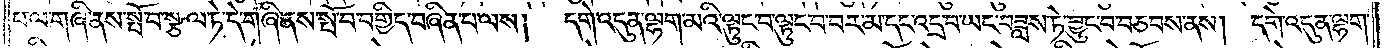པ་ལ་གཞི་ནས་སྤོ་བ་སྩལ་ཏེ་དེ་གཞི་ནས་སྤོ་བ་བགྱིད་བཞིན་པ་ལས། དགེ་འདུན་ལྷག་མའི་ལྟུང་བ་ལྟུང་བ་བར་མ་དང་འདྲ་བ་ཡང་བཟླས་ཏེ་བྱུང་བ་བཅབས་ནས། དགེ་འདུན་ལྷག་
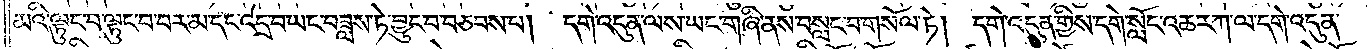མའི་ལྟུང་བ་ལྟུང་བ་བར་མ་དང་འདྲ་བ་ཡང་བཟླས་ཏེ་བྱུང་བ་བཅབས་པ། དགེ་འདུན་ལས་ཡང་གཞི་ནས་བསླང་བ་གསོལ་ཏེ། དགེ་འདུན་གྱིས་དགེ་སློང་འཆར་ཀ་ལ་དགེ་འདུན་
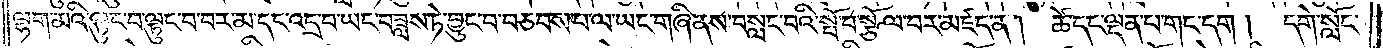ལྷག་མའི་ལྟུང་བ་ལྟུང་བ་བར་མ་དང་འདྲ་བ་ཡང་བཟླས་ཏེ་བྱུང་བ་བཅབས་པ་ལ་ཡང་གཞི་ནས་བསླང་བའི་སྤོ་བ་སྩོལ་བར་མཛད་ན། ཚེ་དང་ལྡན་པ་གང་དག །དགེ་སློང་
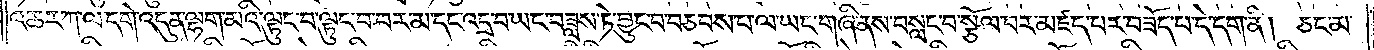འཆར་ཀ་ལ་དགེ་འདུན་ལྷག་མའི་ལྟུང་བ་ལྟུང་བ་བར་མ་དང་འདྲ་བ་ཡང་བཟླས་ཏེ་བྱུང་བ་བཅབས་པ་ལ་ཡང་གཞི་ནས་བསླང་བ་སྩོལ་བར་མཛད་པ་བཟོད་པ་དེ་དག་ནི། ཅང་མ་
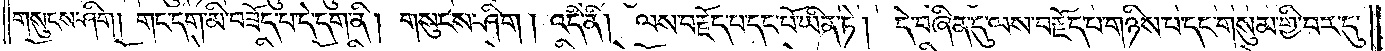གསུངས་ཤིག །གང་དག་མི་བཟོད་པ་དེ་དག་ནི། གསུངས་ཤིག །འདི་ནི། ལས་བརྗོད་པ་དང་པོ་ཡིན་ཏེ། དེ་བཞིན་དུ་ལས་བརྗོད་པ་གཉིས་པ་དང་གསུམ་གྱི་བར་དུ་
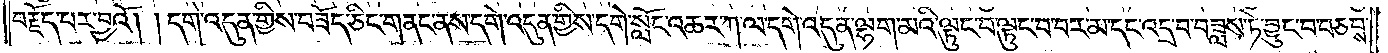བརྗོད་པར་བྱའོ། །དགེ་འདུན་གྱིས་བཟོད་ཅིང་གནང་ནས་དགེ་འདུན་གྱིས་དགེ་སློང་འཆར་ཀ་ལ་དགེ་འདུན་ལྷག་མའི་ལྟུང་བ་ལྟུང་བ་བར་མ་དང་འདྲ་བ་བཟླས་ཏེ་བྱུང་བ་བཅབས་
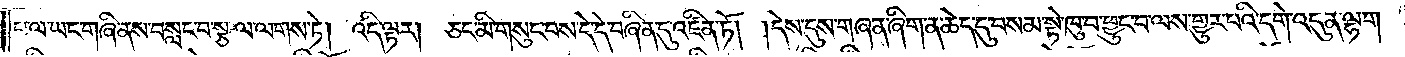པ་ལ་ཡང་གཞི་ནས་བསླང་བ་སྩལ་ལགས་ཏེ། འདི་ལྟར། ཅང་མི་གསུང་བས་དེ་དེ་བཞིན་དུ་འཛིན་ཏོ། །དེས་དུས་གཞན་ཞིག་ན་ཆེད་དུ་བསམ་སྟེ་ཁུ་བ་ཕྱུང་བ་ལས་གྱུར་པའི་དགེ་འདུན་ལྷག་
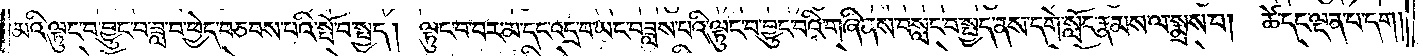མའི་ལྟུང་བ་བྱུང་བ་ཟླ་བ་ཕྱེད་བཅབས་པའི་སྤོ་བ་སྤྱད། ལྟུང་བ་བར་མ་དང་འདྲ་བ་ཡང་བཟླས་པའི་ལྟུང་བ་བྱུང་བའི་གཞི་ནས་བསླང་བ་སྤྱད་ནས་དགེ་སློང་རྣམས་ལ་སྨྲས་པ། ཚེ་དང་ལྡན་པ་དག།
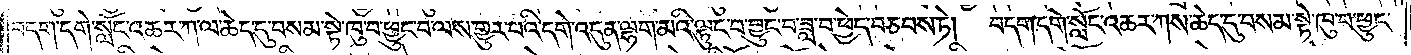བདག་དགེ་སློང་འཆར་ཀ་ལ་ཆེད་དུ་བསམ་སྟེ་ཁུ་བ་ཕྱུང་བ་ལས་གྱུར་པའི་དགེ་འདུན་ལྷག་མའི་ལྟུང་བ་བྱུང་བ་ཟླ་བ་ཕྱེད་བཅབས་ཏེ། བདག་དགེ་སློང་འཆར་ཀས་ཆེད་དུ་བསམ་སྟེ་ཁུ་བ་ཕྱུང་
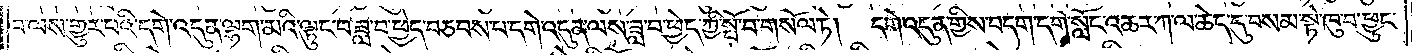བ་ལས་གྱུར་པའི་དགེ་འདུན་ལྷག་མའི་ལྟུང་བ་ཟླ་བ་ཕྱེད་བཅབས་པ་དགེ་འདུན་ལས་ཟླ་བ་ཕྱེད་ཀྱི་སྤོ་བ་གསོལ་ཏེ། དགེ་འདུན་གྱིས་བདག་དགེ་སློང་འཆར་ཀ་ལ་ཆེད་དུ་བསམ་སྟེ་ཁུ་བ་ཕྱུང་
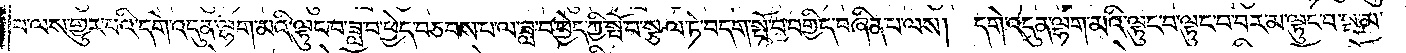བ་ལས་གྱུར་པའི་དགེ་འདུན་ལྷག་མའི་ལྟུང་བ་ཟླ་བ་ཕྱེད་བཅབས་པ་ལ་ཟླ་བ་ཕྱེད་ཀྱི་སྤོ་བ་སྩལ་ཏེ་བདག་སྤོ་བ་བགྱིད་བཞིན་པ་ལས། དགེ་འདུན་ལྷག་མའི་ལྟུང་བ་ལྟུང་བ་བར་མ་ལྟུང་བ་སྔ་མ་
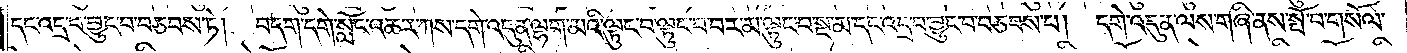དང་འདྲ་བ་བྱུང་བ་བཅབས་ཏེ། བདག་དགེ་སློང་འཆར་ཀས་དགེ་འདུན་ལྷག་མའི་ལྟུང་བ་ལྟུང་བ་བར་མ་ལྟུང་བ་སྔ་མ་དང་འདྲ་བ་བྱུང་བ་བཅབས་པ། དགེ་འདུན་ལས་གཞི་ནས་སྤོ་བ་གསོལ་
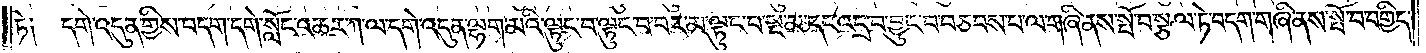ཏེ༑ དགེ་འདུན་གྱིས་བདག་དགེ་སློང་འཆར་ཀ་ལ་དགེ་འདུན་ལྷག་མའི་ལྟུང་བ་ལྟུང་བ་བར་མ་ལྟུང་བ་སྔ་མ་དང་འདྲ་བ་བྱུང་བ་བཅབས་པ་ལ་གཞི་ནས་སྤོ་བ་སྩལ་ཏེ་བདག་གཞི་ནས་སྤོ་བ་བགྱིད་
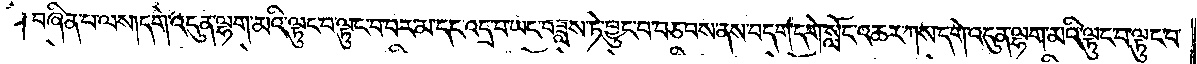བཞིན་པ་ལས། དགེ་འདུན་ལྷག་མའི་ལྟུང་བ་ལྟུང་བ་བར་མ་དང་འདྲ་བ་ཡང་བཟླས་ཏེ་བྱུང་བ་བཅབས་ནས་བདག་དགེ་སློང་འཆར་ཀས་དགེ་འདུན་ལྷག་མའི་ལྟུང་བ་ལྟུང་བ་
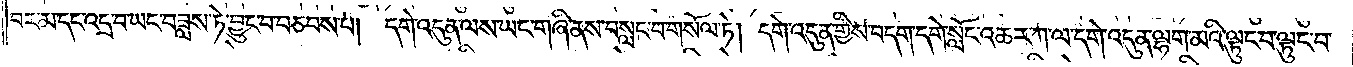བར་མ་དང་འདྲ་བ་ཡང་བཟླས་ཏེ་བྱུང་བ་བཅབས་པ། དགེ་འདུན་ལས་ཡང་གཞི་ནས་བསླང་བ་གསོལ་ཏེ། དགེ་འདུན་གྱིས་བདག་དགེ་སློང་འཆར་ཀ་ལ་དགེ་འདུན་ལྷག་མའི་ལྟུང་བ་ལྟུང་བ་
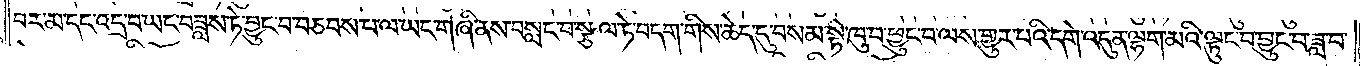བར་མ་དང་འདྲ་བ་ཡང་བཟླས་ཏེ་བྱུང་བ་བཅབས་པ་ལ་ཡང་གཞི་ནས་བསླང་བ་སྩལ་ཏེ་བདག་གིས་ཆེད་དུ་བསམ་སྟེ་ཁུ་བ་ཕྱུང་བ་ལས་གྱུར་པའི་དགེ་འདུན་ལྷག་མའི་ལྟུང་བ་བྱུང་བ་ཟླ་བ་
